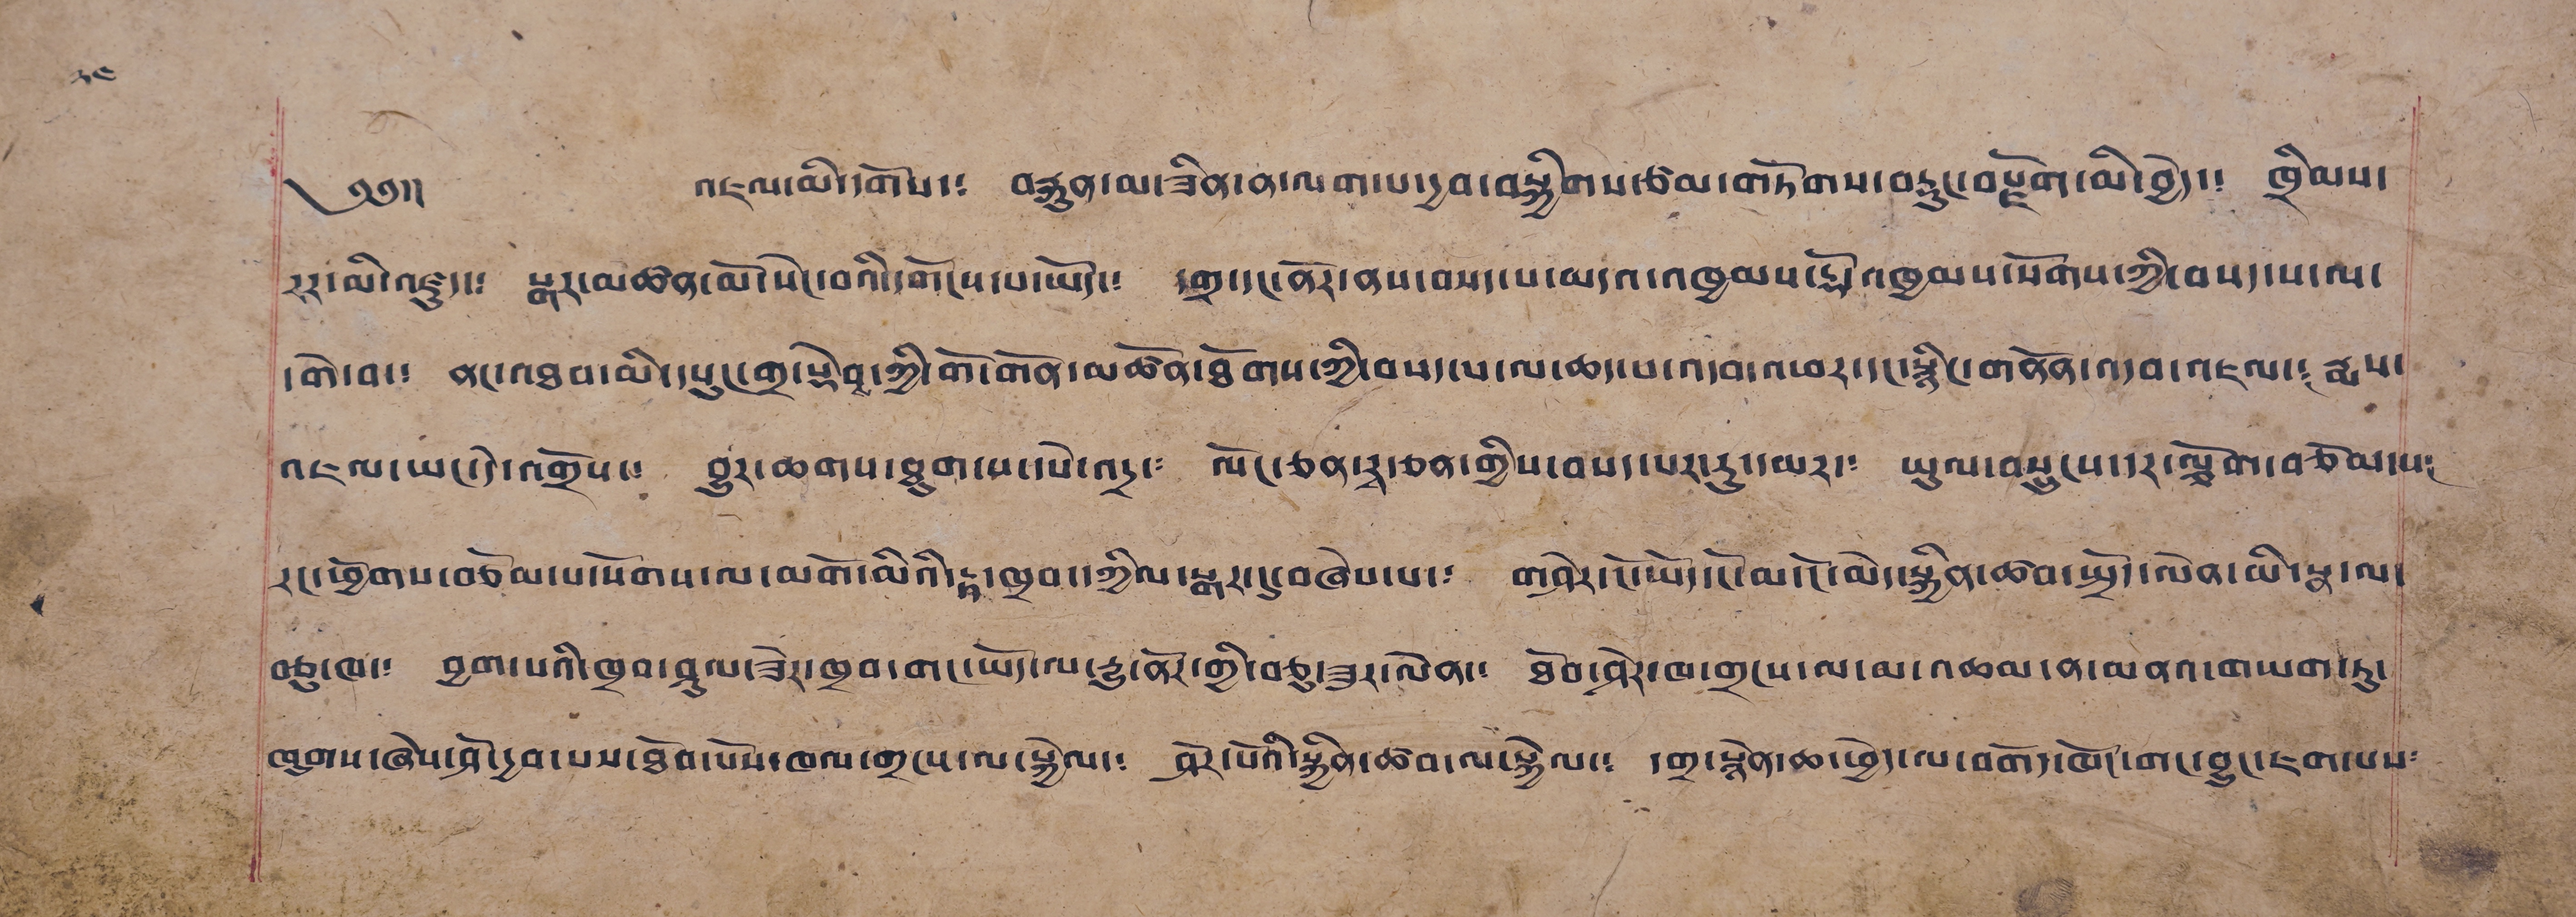༢༤
༄༅།། འཇལ་མི་དགོས་༴ བརྐུན་མ་ཟིན་ན་ལག་པ་དྱབ་བསྐྱིགས་ཙམ་གཏོགས་བརྡུང་བརྫོག་མི་བྱེད་༴ ཁྲིམས་
རར་མི་འཛུད་༴ སྒར་མཚན་མོ་སེང་བའི་དགོངས་པ་ཡོད་༴ དགྲ་དང་ནོར་ནས་བསད་པ་མདའ་འཁྱམས་རྡོ་འཁྱམས་སོགས་ཀྱི་བསད་པ་ལ་
དགེ་བ་༴ ནང་འཐབ་མི་དཔུང་གྲ་སྡེབ་ཀྱི་གོ་གོན་མཚོན་ཐོགས་ཀྱི་བསད་པ་ལ་ཆད་པ་འདབ་འཕར་དང་སྙིང་གནོན་འདབ་འཇལ་༴ རྨས་
འཇལ་ཡང་དེ་འགྲོས་༴ བྱུར་ཆགས་ཐུག་པ་དཔེ་འདྲ་༴ ལོང་ཅན་རྭ་ཅན་གྱིས་བསད་པར་རུ་དམར་༴ ཡུལ་བསྲུངས་དར་ལྕོག་བཅོམ་པ༴
རང་ཕྱོགས་བཅོམ་པ་སོགས་ལ་མགོ་མིའི་རྟ་ཁྲབ་དཀྱིལ་སྒར་དུ་བཞེས་པ་༴ གཤེར་ངོ་ཡོད་ངོ་མ་ངོ་མེད་སྐྱིན་ཚབ་སྤྲོད་ལེན་མི་སྣ་ལ་
ཆུ་ཁ་༴ བྱག་པའི་ཁྲབ་ཤུལ་ཟེར་བྲབ་གང་ཡོད་ལ་རྒྱུ་ནོར་གྱི་བཅུ་ཟར་ལེན་༴ ཐོབ་ཤེར་ཁ་གྲངས་ལ་མ་འཆམ་ན་མབའ་གཡག་ཏུ་
ཁུགས་ཞེས་ཤོ་དྱབ་པས་ཐོབ་པོས་ཁལ་གྲངས་ལ་སྐྱེལ་༴ ཤེར་པོའི་སྐྱིན་ཚབ་ལ་སྐྱེལ་༴ དགྲ་སྙེན་ཆ་ཕྱེད་ལ་བགོད་ཁོང་གང་བྱུང་ཇག་པས༴
